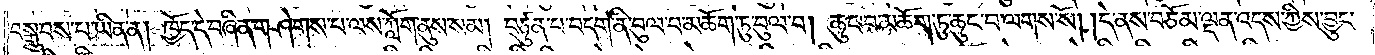བསྒྲུབས་པ་ཡིན་ན། ཁྱོད་དེ་བཞིན་གཤེགས་པ་ལས་ཀློག་ནུས་སམ། བཙུན་པ་བདག་ནི་བུལ་བ་མཆོག་ཏུ་བུལ་བ། ཆུང་བ་མཆོག་ཏུ་ཆུང་བ་ལགས་སོ། །དེ་ནས་བཅོམ་ལྡན་འདས་ཀྱིས་བྱུང་
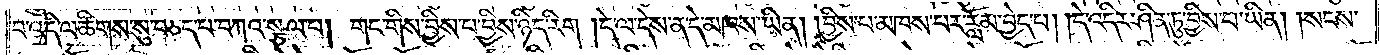བ་འདི་ལ་ཚིགས་སུ་བཅད་པ་བཀའ་སྩལ་པ། གང་གིས་བྱིས་པ་བྱིས་ཉིད་རིག །དེ་ལ་དེས་ན་དེ་མཁས་ཡིན། །བྱིས་པ་མཁས་པར་རློམ་བྱེད་པ། །དེ་འདིར་ཤིན་ཏུ་བྱིས་པ་ཡིན། །སངས་
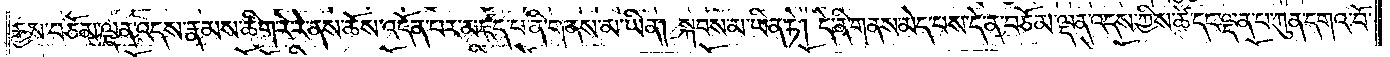རྒྱས་བཅོམ་ལྡན་འདས་རྣམས་ཚིག་རེ་རེ་ནས་ཆོས་འདོན་པར་མཛད་པ་ནི་གནས་མ་ཡིན། སྐབས་མ་ཡིན་ཏེ། དེ་ནི་གནས་མེད་པས་དེ་ན་བཅོམ་ལྡན་འདས་ཀྱིས་ཚེ་དང་ལྡན་པ་ཀུན་དགའ་བོ་
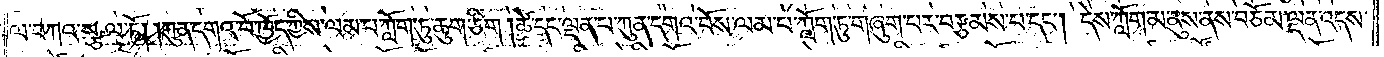ལ་བཀའ་སྩལ་ཏོ། །ཀུན་དགའ་བོ་ཁྱོད་ཀྱིས་ལམ་པ་ཀློག་ཏུ་ཆུག་ཅིག །ཚེ་དང་ལྡན་པ་ཀུན་དགའ་བོས་ལམ་པ་ཀློག་ཏུ་གཞུག་པར་བརྩམས་པ་དང༌། དེས་ཀློག་མ་ནུས་ནས་བཅོམ་ལྡན་འདས་
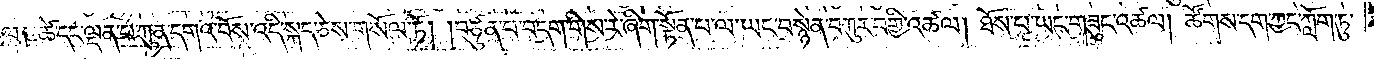ལ༑ ཚེ་དང་ལྡན་པ་ཀུན་དགའ་བོས་འདི་སྐད་ཅེས་གསོལ་ཏོ། །བཙུན་པ་བདག་གིས་རེ་ཞིག་སྟོན་པ་ལ་ཡང་བསྙེན་བཀུར་བགྱི་འཚལ། ཐོས་པ་ཡང་གཟུང་འཚལ། ཚོགས་དག་ཀྱང་ཀློག་ཏུ་
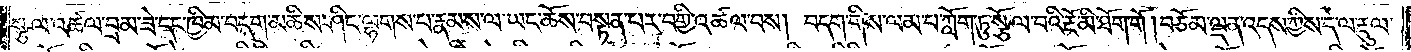སྩལ་འཆལ་བྲམ་ཟེ་དང་ཁྱིམ་བདག་མཆིས་ཤིང་ལྷགས་པ་རྣམས་ལ་ཡང་ཆོས་བསྟན་པར་བགྱི་འཚལ་བས། བདག་གིས་ལམ་པ་ཀློག་ཏུ་སྩོལ་བའི་རྔོ་མི་ཐོག་གོ། བཅོམ་ལྡན་འདས་ཀྱིས་དེ་ལ་རྡུལ་
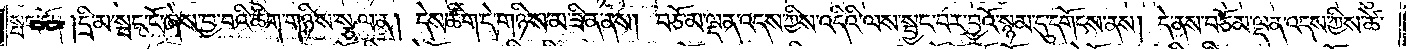སྤང་ངོ༌། །དྲི་མ་སྤང་ངོ་ཞེས་བྱ་བའི་ཚིག་གཉིས་སྩལ་ན། དེས་ཚིག་དེ་གཉིས་མ་ཟིན་ནས། བཅོམ་ལྡན་འདས་ཀྱིས་འདིའི་ལས་སྦྱང་བར་བྱའོ་སྙམ་དུ་དགོངས་ནས། དེ་ནས་བཅོམ་ལྡན་འདས་ཀྱིས་ཚེ་
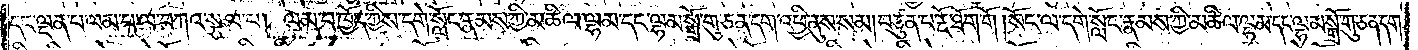དང་ལྡན་པ་ལམ་པ་ལ་བཀའ་སྩལ་པ། ལམ་པ་ཁྱོད་ཀྱིས་དགེ་སློང་རྣམས་ཀྱི་མཆིལ་ལྷམ་དང་ལྷམ་སྒྲོ་གུ་ཅན་དག་འཕྱི་ནུས་སམ། བཙུན་པ་རྔོ་ཐོག་གོ །སོང་ལ་དགེ་སློང་རྣམས་ཀྱི་མཆིལ་ལྷམ་དང་ལྷམ་སྒྲོ་གུ་ཅན་དག་
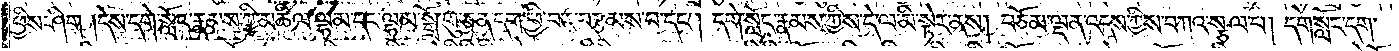ཕྱིས་ཤིག །དེས་དགེ་སློང་རྣམས་ཀྱི་མཆིལ་ལྷམ་དང་ལྷམ་སྒྲོ་གུ་ཅན་དག་ཕྱི་བར་བརྩམས་པ་དང༌། དགེ་སློང་རྣམས་ཀྱིས་དེ་ལ་མི་སྟེར་ནས། བཅོམ་ལྡན་འདས་ཀྱིས་བཀའ་སྩལ་པ། དགེ་སློང་དག་
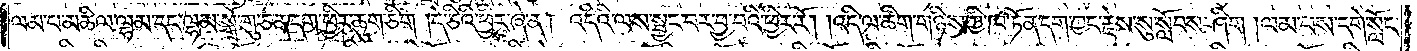ལམ་པ་མཆིལ་ལྷམ་དང་ལྷམ་སྒྲོ་གུ་ཅན་དག་ཕྱིར་ཆུག་ཅིག །དེ་ཅིའི་ཕྱིར་ཞེ་ན། འདིའི་ལས་སྦྱང་བར་བྱ་བའི་ཕྱིར་རོ། །འདི་ལ་ཚིག་གཉིས་ཀྱི་ཁ་ཏོན་དག་ཀྱང་རྗེས་སུ་སློབས་ཤིག །ལམ་པས་དགེ་སློང་
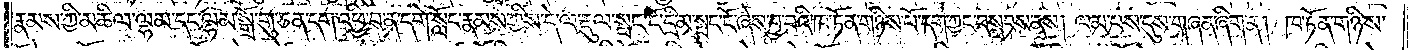རྣམས་ཀྱི་མཆིལ་ལྷམ་དང་ལྷམ་སྒྲོ་གུ་ཅན་དག་འཕྱི་བ་ན་དགེ་སློང་རྣམས་ཀྱིས་དེ་ལ་རྡུལ་སྤང་ངོ་དྲི་མ་སྤང་ངོ་ཞེས་བྱ་བའི་ཁ་ཏོན་གཉིས་པོ་དག་ཀྱང་བསླབས་ནས། ལམ་པས་དུས་གཞན་ཞིག་ན། ཁ་ཏོན་གཉིས་
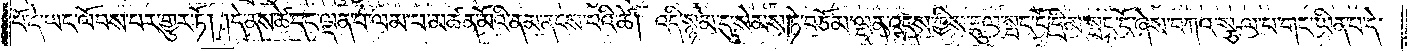པོ་དེ་ཡང་ལོབས་པར་གྱུར་ཏོ། །དེ་ནས་ཚེ་དང་ལྡན་པ་ལམ་པ་མཚན་མོའི་ནམ་ནངས་པའི་ཚེ། འདི་སྙམ་དུ་སེམས་ཏེ་བཅོམ་ལྡན་འདས་ཀྱིས་རྡུལ་སྤང་ངོ་དྲི་མ་སྤང་ངོ་ཞེས་བཀའ་སྩལ་པ་གང་ཡིན་པ་དེ་
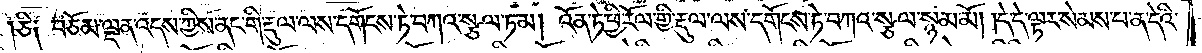ཅི༑ བཅོམ་ལྡན་འདས་ཀྱིས་ནང་གི་རྡུལ་ལས་དགོངས་ཏེ་བཀའ་སྩལ་ཏམ། འོན་ཏེ་ཕྱི་རོལ་གྱི་རྡུལ་ལས་དགོངས་ཏེ་བཀའ་སྩལ་སྙམ་མོ། །དེ་དེ་ལྟར་སེམས་པ་ན་དེའི་
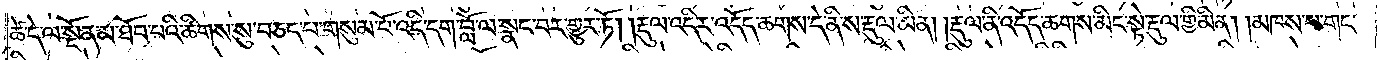ཚེ་དེ་ལ་སྔོན་མ་ཐོབ་པའི་ཚིགས་སུ་བཅད་པ་གསུམ་པོ་འདི་དག་བློ་ལ་སྣང་བར་གྱུར་ཏོ། །རྡུལ་འདིར་འདོད་ཆགས་དེ་ནི་ས་རྡུལ་མིན། །རྡུལ་ནི་འདོད་ཆགས་མིང་སྟེ་རྡུལ་གྱི་མིན། །མཁས་པ་གང་
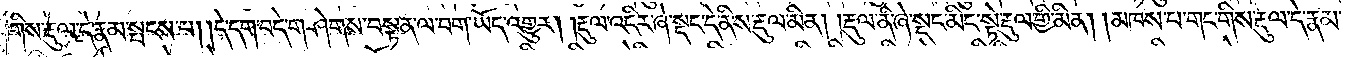གིས་རྡུལ་དེ་རྣམ་སྤངས་པ། །དེ་དག་བདེ་གཤེགས་བསྟན་ལ་བག་ཡོད་འགྱུར། །རྡུལ་འདིར་ཞེ་སྡང་དེ་ནི་ས་རྡུལ་མིན། །རྡུལ་ནི་ཞེ་སྡང་མིང་སྟེ་རྡུལ་གྱི་མིན། །མཁས་པ་གང་གིས་རྡུལ་དེ་རྣམ་
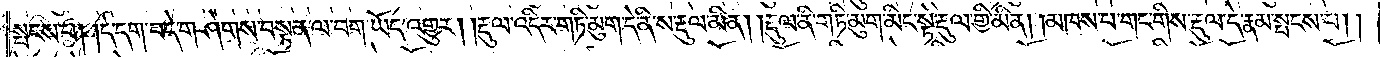སྤངས་པ། །དེ་དག་བདེ་གཤེགས་བསྟན་ལ་བག་ཡོད་འགྱུར། །རྡུལ་འདིར་གཏི་མུག་དེ་ནི་ས་རྡུལ་མིན། །རྡུལ་ནི་གཏི་མུག་མིང་སྟེ་རྡུལ་གྱི་མིན། །མཁས་པ་གང་གིས་རྡུལ་དེ་རྣམ་སྤངས་པ། །
